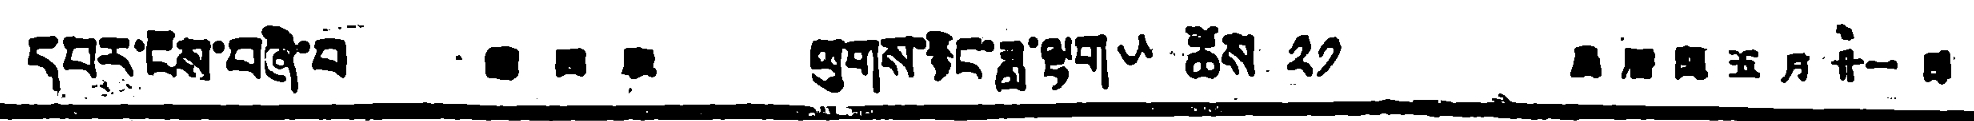དཔར་ངོས་བཞི་པ 第四版 ལུགས་རྙིང་ཟླ་ལྷག་༥ ཚེས ༢༡ 農曆閏五月廿一日
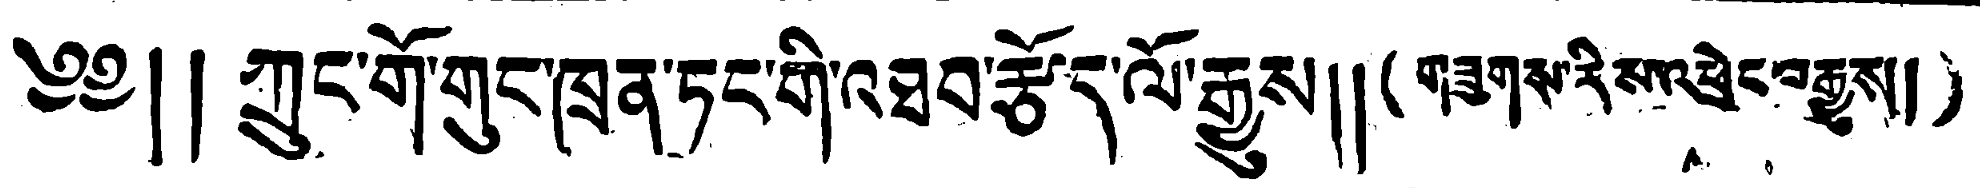༄༅།། ཀྲུང་གོ་གུང་ཁྲན་ཏང་གི་འཐབ་རྩོད་ལོ་རྒྱུས།། (གཟུགས་རིས་འཕྲེང་བརྒྱུས།)
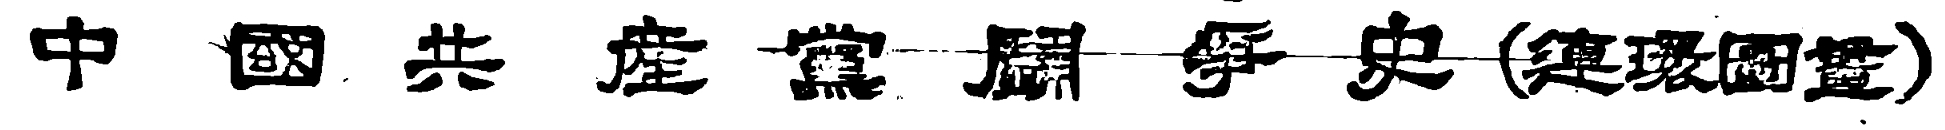中 國 共 產 黨 鬥 爭 史（連環圖畫）
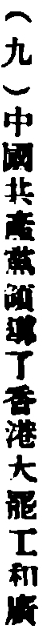（九）中國共產黨領導了香港大罷工和廣
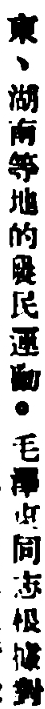東、湖南等地的農民運動。毛澤東同志根據對
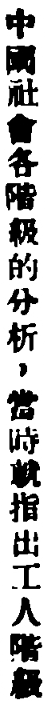中國社會各階級的分析，當時就指出工人階級
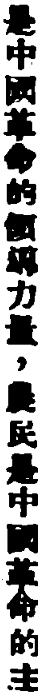是中國革命的領導力量，農民是中國革命的主
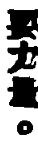要力量。
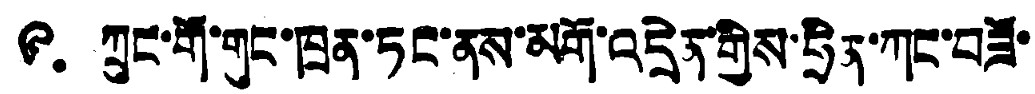༩. ཀྲུང་གོ་གུང་ཁྲན་ཏང་ནས་མགོ་འདྲེན་གྱིས་ཧྲིན་ཀང་བཟོ་
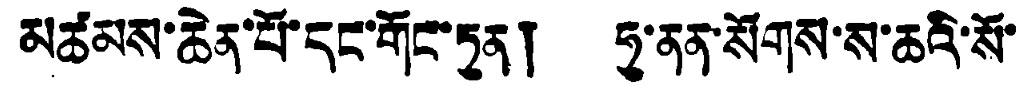མཚམས་ཆེན་པོ་དང་གོང་ཏུན། ཧུ་ནན་སོགས་ས་ཆའི་སོ་
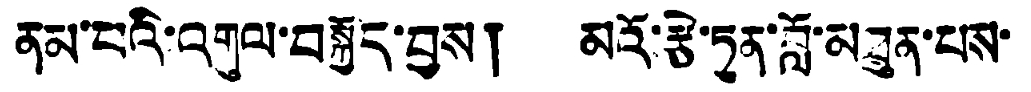ནམ་པའི་འགུལ་བསྐྱོད་བྱས། མའོ་རྩེ་ཏུན་བློ་མཐུན་པས་
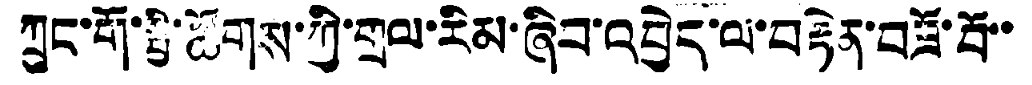ཀྲུང་གོ་སྤྱི་ཚོགས་ཀྱི་གྲལ་རིམ་ཞིབ་འབྱེད་ལ་བརྟེན་བཟོ་བོ་་
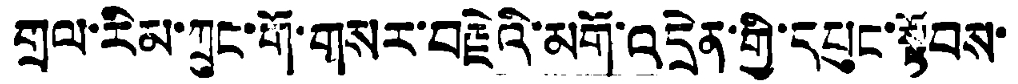གྲལ་རིམ་ཀྲུང་གོ་གསར་བརྗེའི་མགོ་འདྲེན་གྱི་དཔུང་སྟོབས་
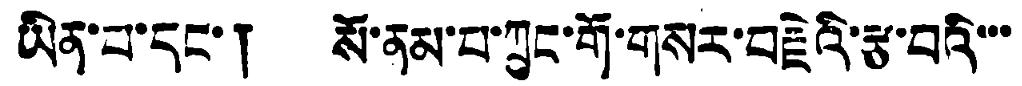ཡིན་པ་དང་། སོ་ནམ་པ་ཀྲུང་གོ་གསར་བརྗེའི་རྩ་བའི་་
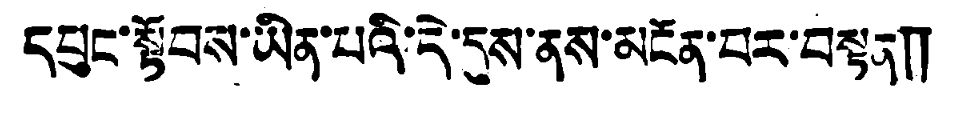དཔུང་སྟོབས་ཡིན་པའི་དེ་དུས་ནས་མངོན་བར་བསྟན༎
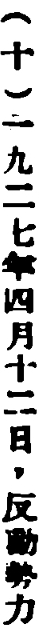（十）一九二七年四月十二日，反動勢力
